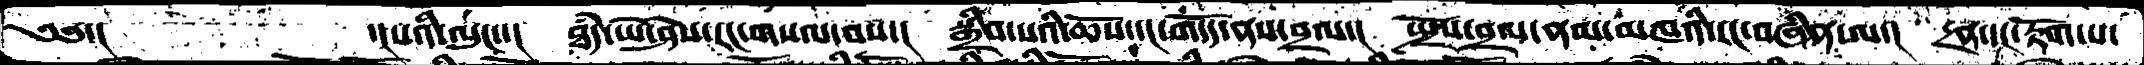༄༅་།       ་།པའི་ལུང་་།  ཐཾད་ཡེ་ཤེས་རང་གསལ་བས་།  སྒྲིབ་པའི་ཆོས་དང་གདོད་ནས་བྲལ་།   སྤྲོས་བྲལ་ནམ་མཁའི་རང་བཞིན་ལ་།  དྲན་དང་རྟོག་པ་
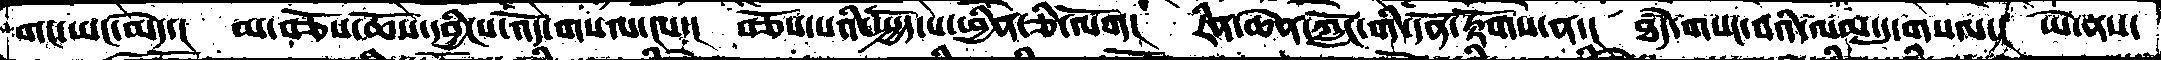གང་ཡང་མེད་།  མ་བཅོས་ཆོས་དབྱིངས་འོད་གསལ་ངས་།  བཅོས་པའི་སྤྱོད་པ་ཕྱིན་ཅི་ལོག།  རིན་ཆེན་ཀློང་གི་དོན་རྟོགས་ན་།  ཐཾད་གསང་བའི་ལམ་དུ་གསལ་།  ཡེ་ནས་
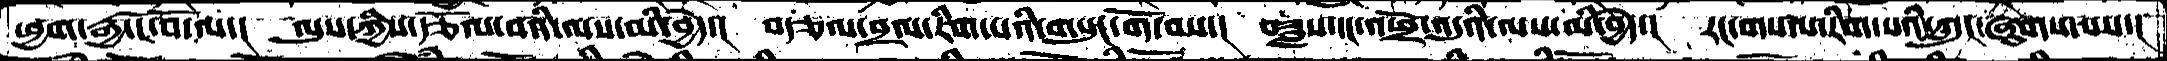ཕྱག་རྒྱ་ངོ་བོ་ལ་།   ལུས་ཀྱིས་རྩོལ་བའི་ལས་མི་བྱེད་།  བརྩལ་བྲལ་རིག་པའི་གསུང་གོ་བས་།  བཟླས་དང་འཕྲོ་འདུའི་ལས་མི་བྱེད་།  རང་གསལ་རིག་པའི་ཀླུང་ཞུགས་པས་།
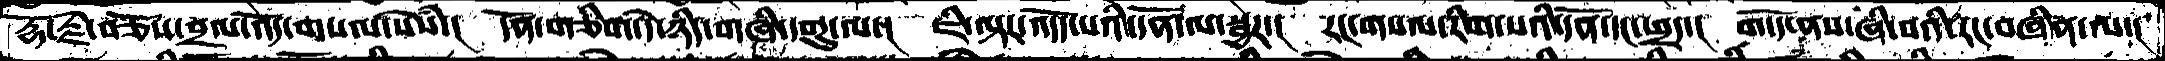རྡོ་རྗེ་བཅོས་བྲལ་འོད་གསལ་སེཾས་།  དོན་གཅིག་དེ་ཉིད་གཞི་དགུ་ལ་།  ཇི་ལྟར་འདོད་པའི་དོན་ལ་སྦྱར་།  རང་གསལ་རིག་པའི་དོན་དང་ཕྲད་།  གདོད་ནས་ཞི་བའི་རང་བཞིན་ལ་།
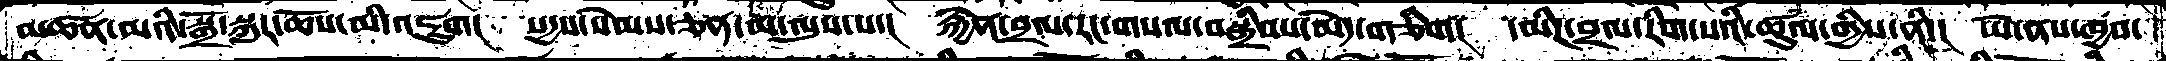མཚན་མའི་སྒྲོ་སྐུར་ཆོས་མི་འཇུག།  སདྱས་སེམས་ཅན་མ་ལུས་པ་།  རྐྱེན་བྲལ་རང་གསལ་བསྒྲིབས་མེད་གཅིག།  དམིཌ་བྲལ་རིག་པའི་ཚུལ་གྱིས་ནི་།  ཡེ་ནས་ཁྱབ་
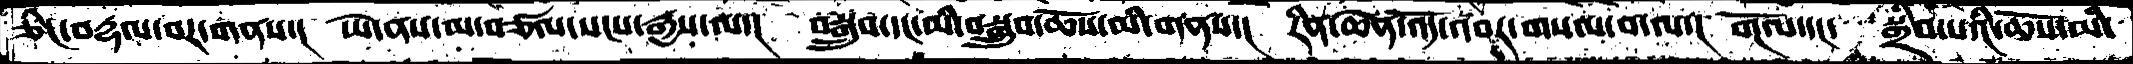ཅིང་བརྡལ་བར་གནས་།  ཡེ་ནས་མ་བཙལ་སངས་རྒྱས་ལ་།   བསྒྲུབ་དང་མི་བསྒྲུབ་ཆོས་མི་གནས་།  རིན་ཆེན་འོད་འབར་གསལ་བ་ལ་།  གོལ་དང་   སྒྲིབ་པའི་ཆོས་མི་
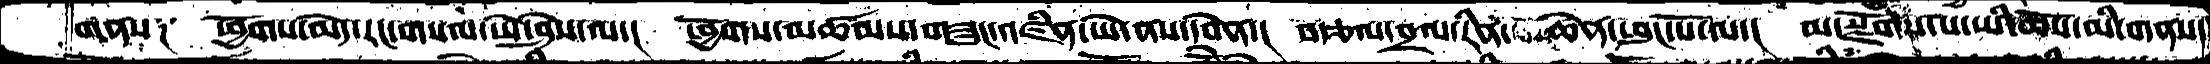གནས༑   ཕྱོགས་མེད་རང་གསལ་ཡེ་ཤེས་ལ་།  ཕྱོགས་འཚམས་གཟུང་འཛིན་ཡེ་ནས་དབེན་།  བརྩལ་བྲལ་རིན་ཆེན་ཕུང་པོ་ལ་།  མ་སྫོགས་པ་ཡི་ཆོས་མི་གནས་
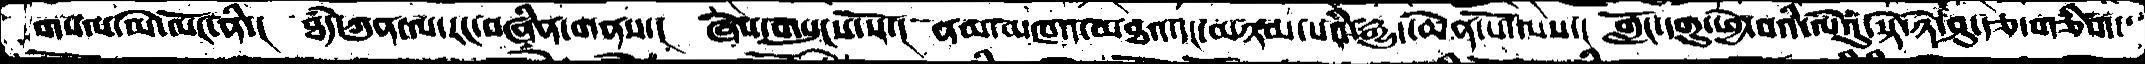གསལ་མེ་ལོང་ནི་།  ཐཾད་ཀུན་ལ་རང་བཞིན་གནས་།  ཞེས་གསུངས་སོ་།  ནམ་མཁའ་མཐའ་དང་མཉམ་པའི་རྒྱུད་ཆེན་པོ་ལས་།  གློང་དགུ་ཕྱེ་བའི་ལེའུ་སྟེ་ཉེ་ཤུ་རྩ་གཅིག་
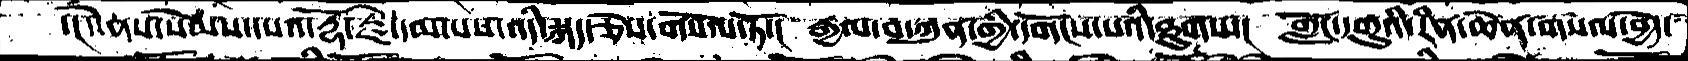་།དེ་ནས་སེམས་དཔའ་རྡོ་རྗེ་དམ་པས་འདི་སྐད་ཅེས་གསོལ་ཏོ་།  རྒྱལ་བ་ཀུན་གྱི་དགོངས་པའི་ཐུགས་།  གློང་དགུའི་རིན་ཆེན་གསལ་བྱེད་
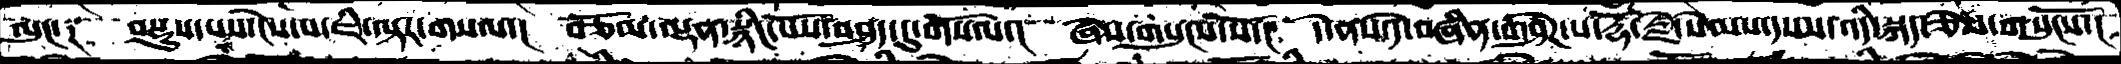ལུང་༑  བསྡུས་པས་ངེས་པ་ཇི་ལྟར་གསལ་།  བཅོམ་ལྡན་སྙིང་པོས་བཤད་དུ་གསོལ་།  ཞེས་གསུངས་སོ་།  དེ་ནས་དེ་བཞིན་གཤེཌ་པ་རྡོ་རྗེ་སེམས་དསས་འདི་སྐད་ཅེས་གསུངསོ་།
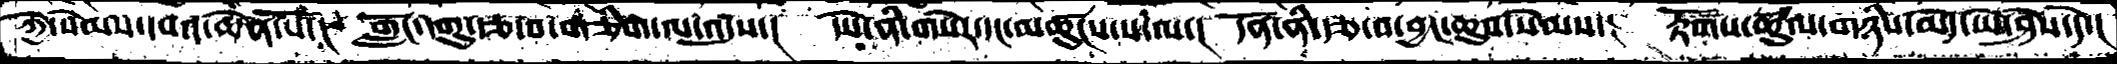ཀྱེ་སེམས་དཔའ་ཆེན་པོ་།  གློང་དགུ་རྩ་བ་གཅིག་ལ་འདུས་།  དེས་ནི་གསེར་དང་མཚུངས་པ་ལ་།  དོན་ནི་རྩ་བ་བྱང་ཆུབ་སེམས་།  རྟོགས་ཚུལ་གཉིས་མེད་ཡེ་ཤེས་དེ་།
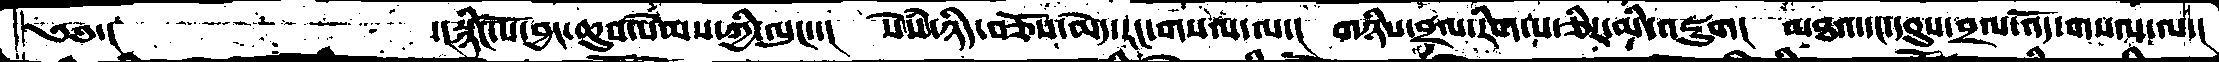༄༅་།        ་།སྙིང་པོ་བྱང་ཆུབ་སེམས་ཀྱི་ལུང་་།  སེཾས་ཉིད་བཅོས་མེད་རང་གསལ་ལ་།  གཉིས་བྲལ་རིག་པ་ཅིར་མི་འཇུག།  མཐའ་དང་དབུས་བྲལ་འོད་གསལ་ལ་།
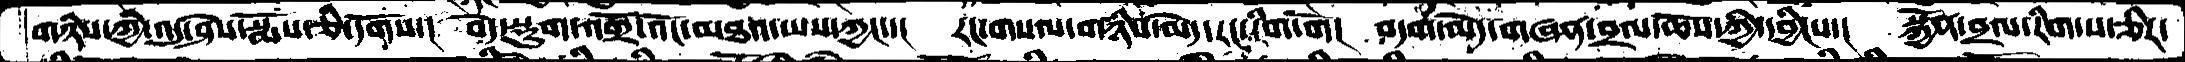གཉིས་ཀྱི་འདུ་ཤེས་སྨོས་ཅི་དགོས་།  བདེ་སྡུག་འགྲོ་འོང་མཐའ་ཡས་ཀྱང་་།  རང་གསལ་གཉིས་མེད་རང་རིག་གོ།  བདག་མེད་གཞན་བྲལ་ཆོས་ཀྱི་དབྱིངས་།  སྐྱེན་བྲལ་རིག་པ་ཅིར་
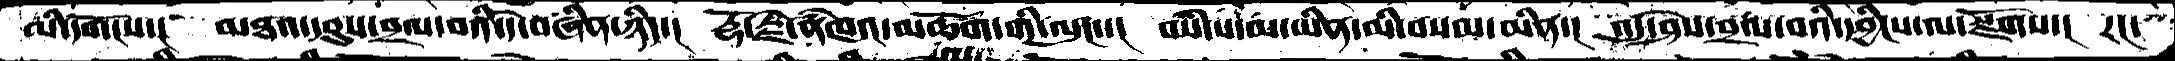མི་དགོས་།   མཐའ་དབུས་བྲལ་བའི་དེ་བཞིན་ཉིད་།  རྡོ་རྗེ་ནཾཁའ་མཆོག་གི་ལུང་་།  བསཾ་པ་མ་ཡིན་མི་བསམ་མིན་།  འདུ་ཤེས་བྲལ་བའི་དབྱིངས་ལ་སྫོགས་།  རང་
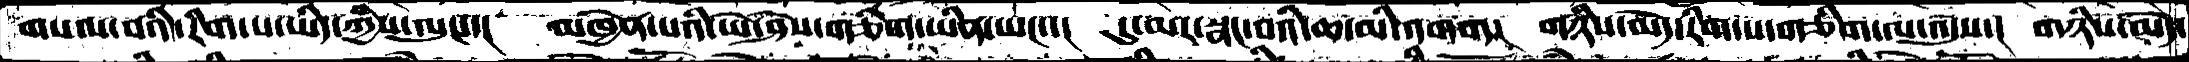གསལ་བའི་རིག་པ་ཡིད་ཀྱིས་ལུང་་།   མཁྱེན་པའི་ཡེ་ཤེས་གཅིག་ཡིན་ཡང་་།  དུ་མར་སྣང་བའི་ཆ་མི་འགག།   གཉིས་མེད་རིག་པ་གཅིག་ལ་འདུས་།  གཉིས་མེད་
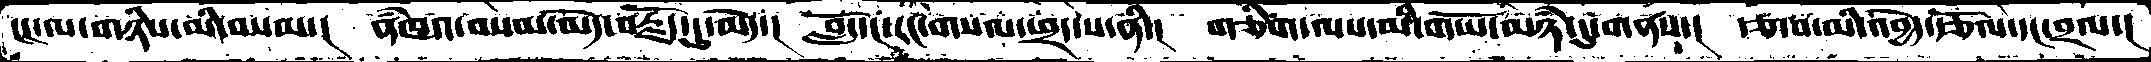ངང་ལ་གཉིས་མི་བསམ་།  ནཾཁའ་བསམ་མེད་བརྗོད་དུ་མེད་།  བློ་དང་རང་གསལ་ཕྲད་པ་ནི་།  གཅིག་ལས་མི་གཡོ་མཉཾ་དུ་གནས་།  རྩ་བ་མི་འབྱེད་རྩོལ་དང་བྲལ་།
